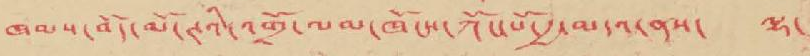ཁམས་བོད་མོ་ཊའི་འགྲོ་ལམ་ཁོངས་ཀོང་པོ་རྒྱ་མདའ་ནས་་ ལྷ་
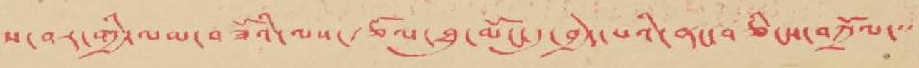ས་བར་གྱི་ལམ་བཟོའི་ལས་རྩོལ་ཐུང་མོང་དུ་བྱེད་པའི་ནང་བཅིངས་བཀྲོལ་་་
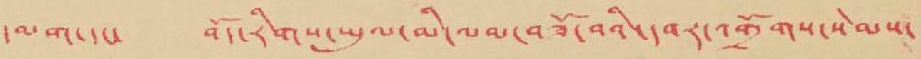དམག་དང་ བོད་རིགས་ཡུལ་མི་ལམ་བཟོ་བའི་དབར་འགྲོགས་སེམས་
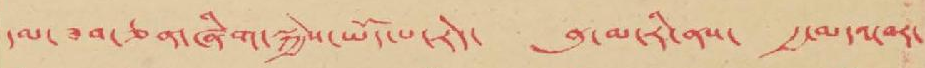དམ་ཟབ་ཅན་ཞིག་སྐྱེས་ཡོད་པ་རེད་ ནུ་མ་རི་ནས་ རྒྱ་མདའ་བར་
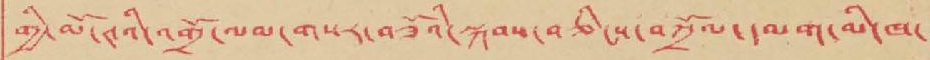གྱི་མོ་ཊའི་འགྲོ་ལམ་གསར་བཟོའི་སྐབས་བཅིངས་བཀྲོལ་དམག་མི་ཁ་
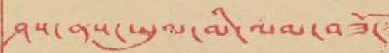ཤས་ནས་ཡུལ་མི་ལམ་བཟོ་
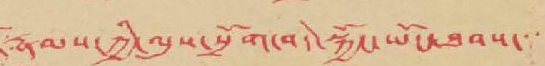རྣམས་ཀྱི་ལུས་སྲོག་བདེ་སྐྱོང་ཡོང་ཐབས་་་
